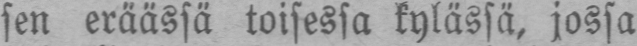sen eräässä toisessa kylässä, jossa
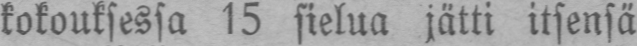kokouksessa 15 sielua jätti itsensä
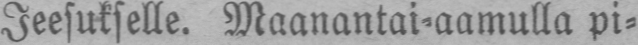Jeesukselle. Maanantai-aamulla pi-
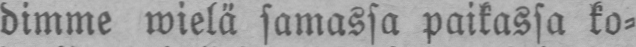dimme wielä samassa paikassa ko-
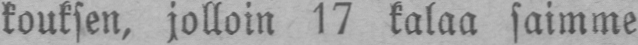kouksen, jolloin 17 kalaa saimme
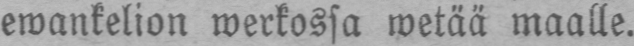ewankelion werkossa wetää maalle.
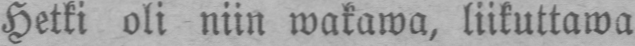Hetki oli niin wakawa, liikuttawa
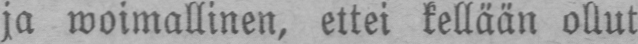ja woimallinen, ettei kellään ollut
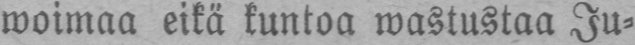woimaa eikä kuntoa wastustaa Ju-
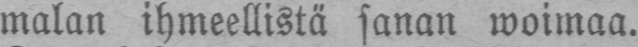malan ihmeellistä sanan woimaa.
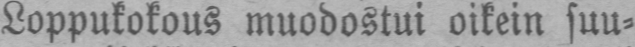Loppukokous muodostui oikein suu-
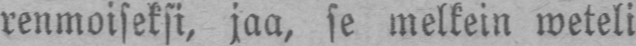renmoiseksi, jaa, se melkein weteli
